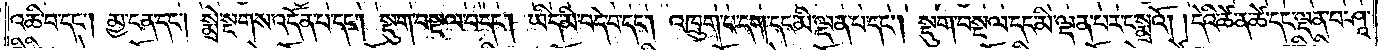འཆི་བ་དང༌། མྱ་ངན་དང༌། སྨྲེ་སྔགས་འདོན་པ་དང༌། སྡུག་བསྔལ་བ་དང༌། ཡིད་མི་བདེ་བ་དང༌། འཁྲུག་པ་དག་དང་མི་ལྡན་པ་དང༌། སྡུག་བསྔལ་དང་མི་ལྡན་པར་ང་སྨྲའོ། །དེའི་ཚེ་ན་ཚེ་དང་ལྡན་པ་ཤཱ་
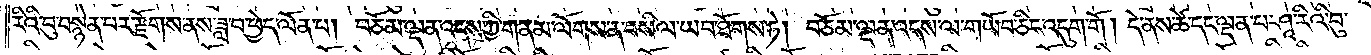རིའི་བུ་བསྙེན་པར་རྫོགས་ནས་ཟླ་བ་ཕྱེད་ལོན་པ། བཅོམ་ལྡན་འདས་ཀྱི་གནམ་ལོགས་ན་བསིལ་ཡབ་ཐོགས་ཏེ། བཅོམ་ལྡན་འདས་ལ་གཡོབ་ཅིང་འདུག་གོ ། དེ་ནས་ཚེ་དང་ལྡན་པ་ཤཱ་རིའི་བུ་
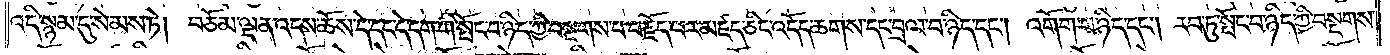འདི་སྙམ་དུ་སེམས་ཏེ། བཅོམ་ལྡན་འདས་ཆོས་དེ་དང་དེ་དག་གི་སྤོང་བ་ཉིད་ཀྱི་བསྔགས་པ་བརྗོད་པར་མཛད་ཅིང་འདོད་ཆགས་དང་བྲལ་བ་ཉིད་དང༌། འགོག་པ་ཉིད་དང༌། རབ་ཏུ་སྤོང་བ་ཉིད་ཀྱི་བསྔགས་
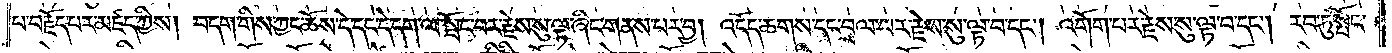པ་བརྗོད་པར་མཛད་ཀྱིས། བདག་གིས་ཀྱང་ཆོས་དེ་དང་དེ་དག་ལ་སྤོང་བར་རྗེས་སུ་ལྟ་ཞིང་གནས་པར་བྱ། འདོད་ཆགས་དང་བྲལ་བར་རྗེས་སུ་ལྟ་བ་དང༌། འགོག་པར་རྗེས་སུ་ལྟ་བ་དང༌། རབ་ཏུ་སྤོང་
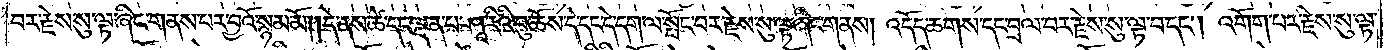བར་རྗེས་སུ་ལྟ་ཞིང་གནས་པར་བྱའོ་སྙམ་མོ། །དེ་ནས་ཚེ་དང་ལྡན་པ་ཤཱ་རིའི་བུ་ཆོས་དེ་དང་དེ་དག་ལ་སྤོང་བར་རྗེས་སུ་ལྟ་ཞིང་གནས། འདོད་ཆགས་དང་བྲལ་བར་རྗེས་སུ་ལྟ་བ་དང༌། འགོག་པར་རྗེས་སུ་ལྟ་
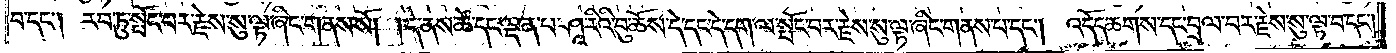བ་དང༌། རབ་ཏུ་སྤོང་བར་རྗེས་སུ་ལྟ་ཞིང་གནས་སོ། །དེ་ནས་ཚེ་དང་ལྡན་པ་ཤཱ་རིའི་བུ་ཆོས་དེ་དང་དེ་དག་ལ་སྤོང་བར་རྗེས་སུ་ལྟ་ཞིང་གནས་པ་དང༌། འདོད་ཆགས་དང་བྲལ་བར་རྗེས་སུ་ལྟ་བ་དང༌།
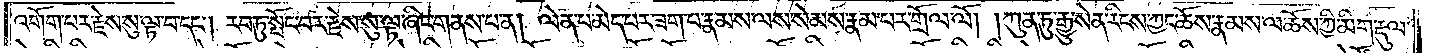འགོག་པར་རྗེས་སུ་ལྟ་བ་དང༌། རབ་ཏུ་སྤོང་བར་རྗེས་སུ་ལྟ་ཞིང་གནས་པ་ན། ལེན་པ་མེད་པར་ཟག་པ་རྣམས་ལས་སེམས་རྣམ་པར་གྲོལ་ལོ། །ཀུན་ཏུ་རྒྱུ་སེན་རིངས་ཀྱང་ཆོས་རྣམས་ལ་ཆོས་ཀྱི་མིག་རྡུལ་
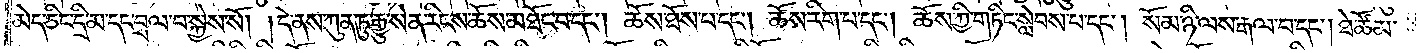མེད་ཅིང་དྲི་མ་དང་བྲལ་བ་སྐྱེས་སོ། །དེ་ནས་ཀུན་ཏུ་རྒྱུ་སེན་རིངས་ཆོས་མཐོང་བ་དང༌། ཆོས་ཐོས་པ་དང༌། ཆོས་རིག་པ་དང༌། ཆོས་ཀྱི་གཏིང་སླེབས་པ་དང༌། སོམ་ཉི་ལས་རྒལ་བ་དང༌། ཐེ་ཚོམ་
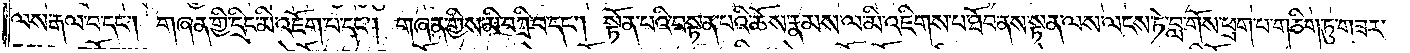ལས་རྒལ་བ་དང༌། གཞན་གྱི་དྲིང་མི་འཇོག་པ་དང༌། གཞན་གྱིས་མི་བཀྲི་བ་དང༌། སྟོན་པའི་བསྟན་པའི་ཆོས་རྣམས་ལ་མི་འཇིགས་པ་ཐོབ་ནས་སྟན་ལས་ལངས་ཏེ་བླ་གོས་ཕྲག་པ་གཅིག་ཏུ་གཟར་
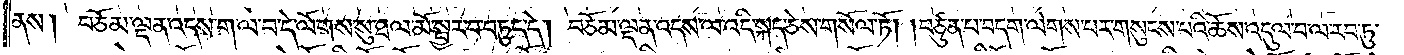ནས། བཅོམ་ལྡན་འདས་ག་ལ་བ་དེ་ལོགས་སུ་ཐལ་མོ་སྦྱར་བ་བཏུད་དེ། བཅོམ་ལྡན་འདས་ལ་འདི་སྐད་ཅེས་གསོལ་ཏོ། །བཙུན་པ་བདག་ལེགས་པར་གསུངས་པའི་ཆོས་འདུལ་བ་ལ་རབ་ཏུ་
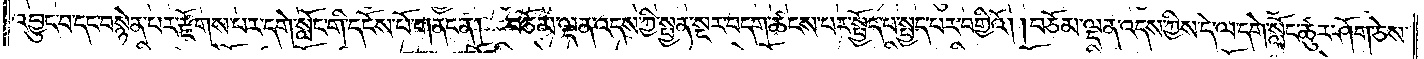འབྱུང་བ་དང་བསྙེན་པར་རྫོགས་པར་དགེ་སློང་གི་དངོས་པོ་གནང་ན། བཅོམ་ལྡན་འདས་ཀྱི་སྤྱན་སྔར་བདག་ཚངས་པར་སྤྱོད་པ་སྤྱད་པར་བགྱིའོ། །བཅོམ་ལྡན་འདས་ཀྱིས་དེ་ལ་དགེ་སློང་ཚུར་ཤོག་ཅེས་
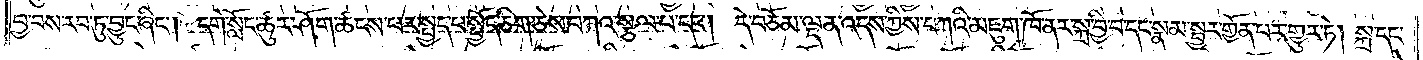བྱ་བས་རབ་ཏུ་བྱུང་ཞིང༌། དགེ་སློང་ཚུར་ཤོག་ཚངས་པར་སྤྱད་པ་སྤྱོད་ཅིག་ཅེས་བཀའ་སྩལ་པ་དང༌། དེ་བཅོམ་ལྡན་འདས་ཀྱིས་བཀའི་མཇུག་ཁོ་ནར་སྐྲ་བྱི་བ་དང་སྣམ་སྦྱར་གྱོན་པར་གྱུར་ཏེ། སྐྲ་དང་
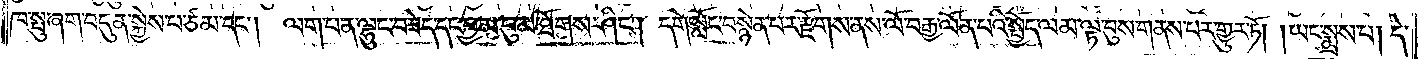ཁ་སྤུ་ཞག་བདུན་སྐྱེས་པ་ཙམ་དང༌། ལག་པ་ན་ལྷུང་བཟེད་དང་བྱ་མ་བུམ་ཐོགས་ཤིང༌། དགེ་སློང་བསྙེན་པར་རྫོགས་ནས་ལོ་བརྒྱ་ལོན་པའི་སྤྱོད་ལམ་ལྟ་བུས་གནས་པར་གྱུར་ཏོ། །ཡང་སྨྲས་པ། དེ་
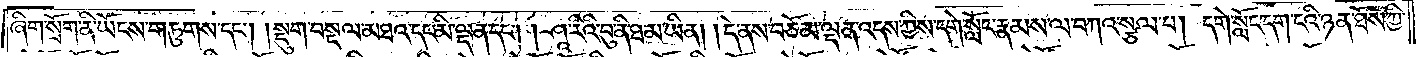ཞིག་སྲོག་ནི་ཡོངས་གཏུགས་དང༌། །སྡུག་བསྔལ་མཐའ་དང་མི་ལྡན་དང༌། །ཤཱ་རིའི་བུ་ནི་ཐ་མ་ཡིན། །དེ་ནས་བཅོམ་ལྡན་འདས་ཀྱིས་དགེ་སློང་རྣམས་ལ་བཀའ་སྩལ་པ། དགེ་སློང་དག་ངའི་ཉན་ཐོས་ཀྱི་
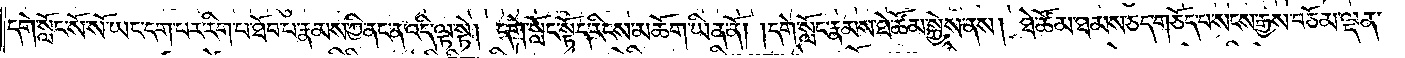དགེ་སློང་སོ་སོ་ཡང་དག་པར་རིག་པ་ཐོབ་པ་རྣམས་ཀྱི་ནང་ན་འདི་ལྟ་སྟེ། དགེ་སློང་སྟོད་རིངས་མཆོག་ཡིན་ནོ། །དགེ་སློང་རྣམས་ཐེ་ཚོམ་སྐྱེས་ནས། ཐེ་ཚོམ་ཐམས་ཅད་གཅོད་པ་སངས་རྒྱས་བཅོམ་ལྡན་
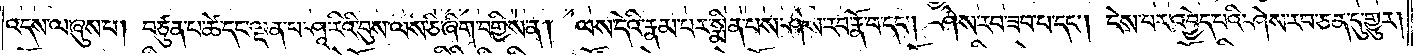འདས་ལ་ཞུས་པ། བཙུན་པ་ཚེ་དང་ལྡན་པ་ཤཱ་རིའི་བུས་ལས་ཅི་ཞིག་བགྱིས་ན། ལས་དེའི་རྣམ་པར་སྨིན་པས་ཤེས་རབ་རྣོ་བ་དང༌། ཤེས་རབ་ཟབ་པ་དང༌། ངེས་པར་འབྱེད་པའི་ཤེས་རབ་ཅན་དུ་གྱུར།
